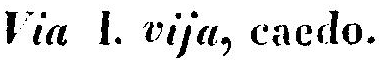Via l. vija, caedo.
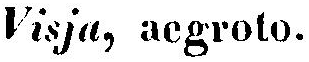Visja, aegroto.
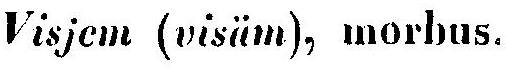Visjem (visäm), morbus.
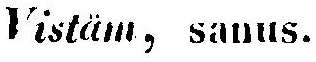Vistäm, sanus.
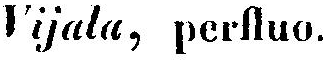Vijala, perfluo.
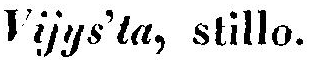Vijys'ta, stillo.
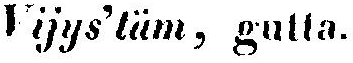Vijys'täm, gutta.
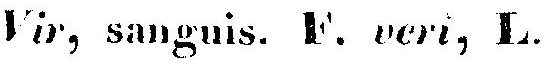Vir, sanguis. F veri, L.
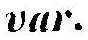var.
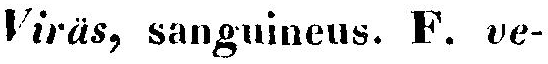Viräs, sanguineus. F. ve-
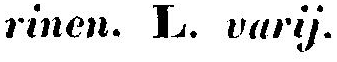rinen. L. varij.
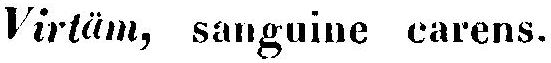Virtäm, sanguine carens.
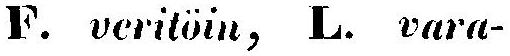F. veritöin, L. vara-
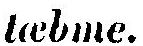tæbme.
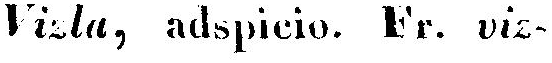Vizla, adspicio. Fr. viz-
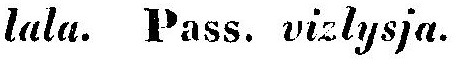lala. Pass. vizlysja.
